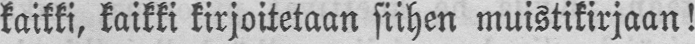kaikki, kaikki kirjoitetaan siihen muistikirjaan!
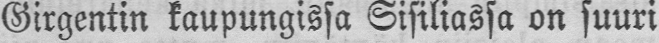Girgentin kaupungissa Sisiliassa on suuri
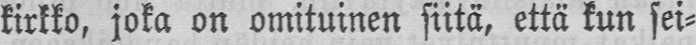kirkko, joka on omituinen siitä, että kun sei-
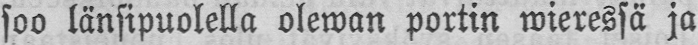soo länsipuolella olewan portin wieressä ja
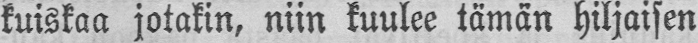kuiskaa jotakin, niin kuulee tämän hiljaisen
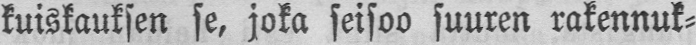kuiskauksen se, joka seisoo suuren rakennuk-
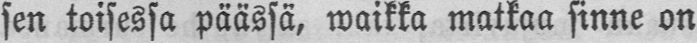sen toisessa päässä, waikka matkaa sinne on
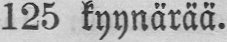125 kyynärää.
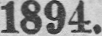1894.
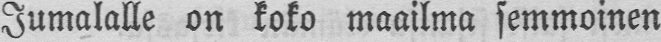Jumalalle on koko maailma semmoinen
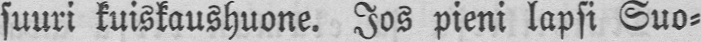suuri kuiskaushuone. Jos pieni lapsi Suo-
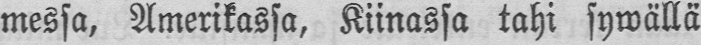messa, Amerikassa, Kiinassa tahi sywällä
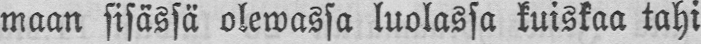maan sisässä olewassa luolassa kuiskaa tahi
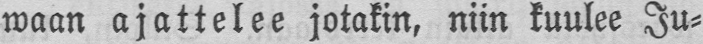waan ajattelee jotakin, niin kuulee Ju-
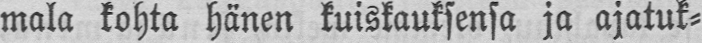mala kohta hänen kuiskauksensa ja ajatuk-
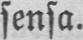sensa.
